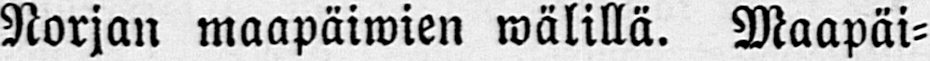Norjan maapäiwien wälillä. Maapäi-
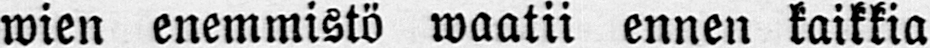wien enemmistö waatii ennen kaikkia
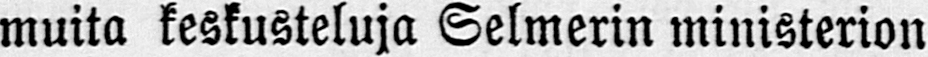muita keskusteluja Selmerin ministerion
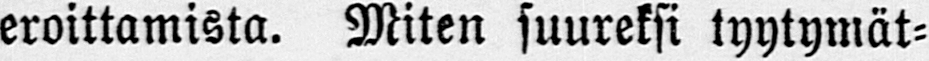eroittamista. Miten suureksi tyytymät-
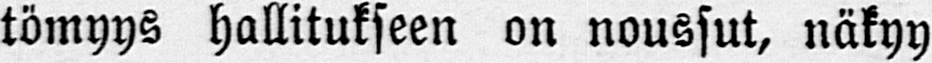tömyys hallitukseen on noussut, näkyy
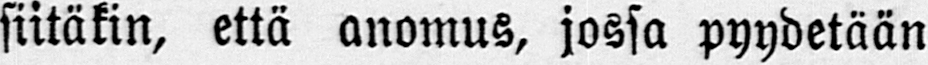siitäkin, että anomus, jossa pyydetään
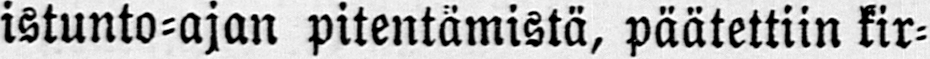istunto-ajan pitentämistä, päätettiin kir-
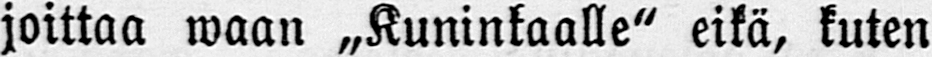joittaa waan „Kuninkaalle" eikä, kuten
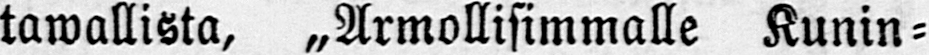tawallista, „Armollisimmalle Kunin-
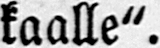kaalle".
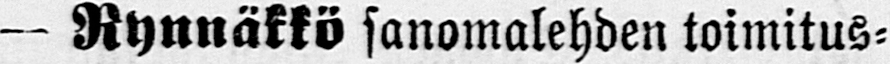— Rynnäkkö sanomalehden toimitus-
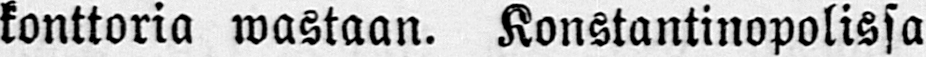konttoria wastaan. Konstantinopolissa
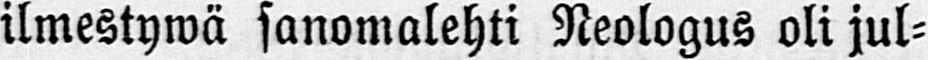ilmestywä sanomalehti Neologus oli jul-
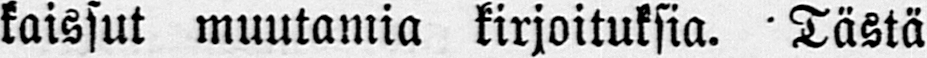kaissut muutamia kirjoituksia. Tästä
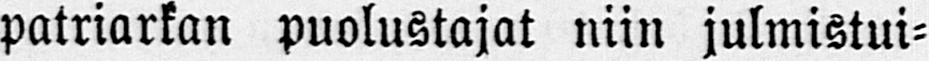patriarkan puolustajat niin julmistui-
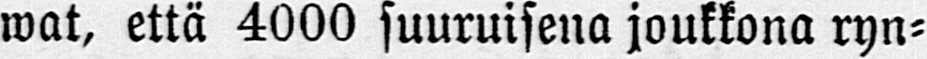wat, että 4000 suuruisena joukkona ryn-
